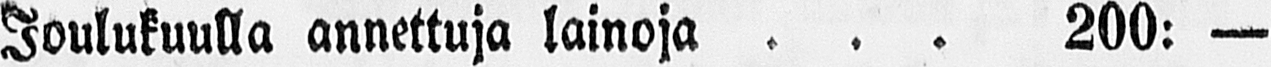Joulukuulla annettuja lainoja . . . 200: —
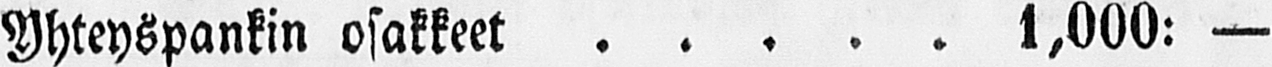Yhteyspankin osakkeet . . . . . . 1,000: —
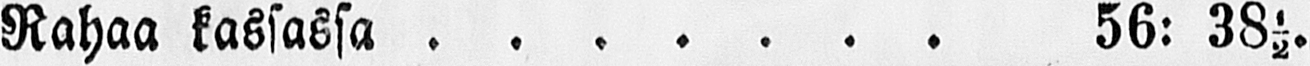Rahaa kassassa . . . . . . . 56: 38½.
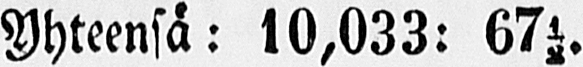Yhteensä: 10,033: 67½.
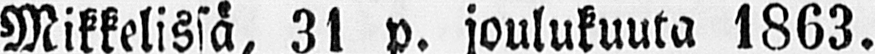Mikkelissä, 31 p. joulukuuta 1863.
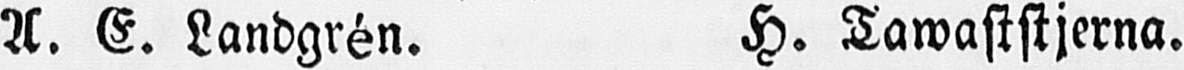A. E. Landgrén. H. Tawaststjerna.
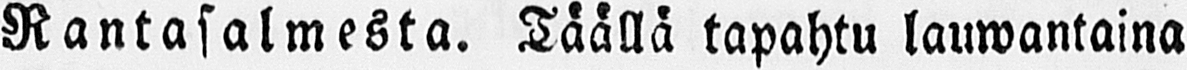Rantasalmesta. Täällä tapahtu lauwantaina
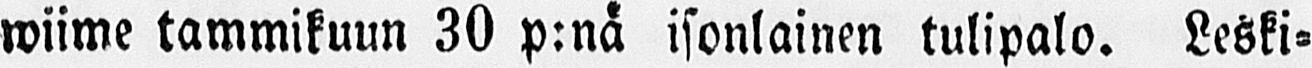wiime tammikuun 30 p:nä isonlainen tulipalo. Leski-
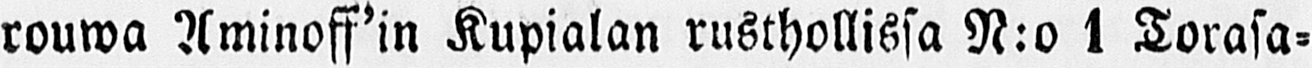rouwa Aminoff'in Kupialan rusthollissa N:o 1 Torasa-
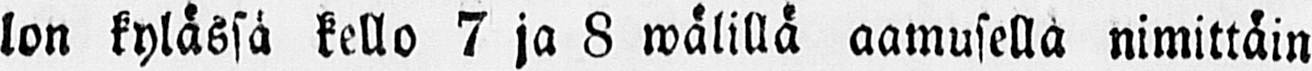lon kyläsä kello 7 ja 8 wälillä aamusella nimittäin
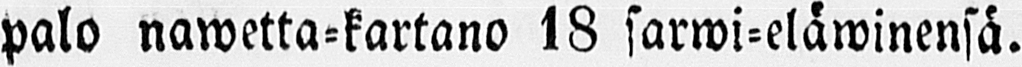palo nawetta-kartano 18 sarwi-eläwinensä.
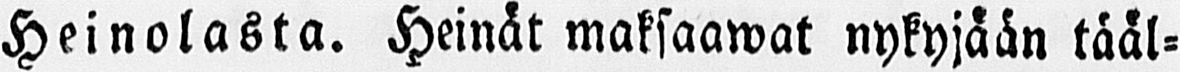Heinolasta. Heinät maksaawat nykyjään tääl-
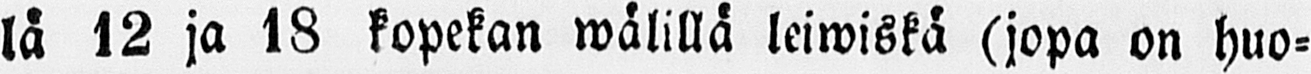lä 12 ja 18 kopekan wälillä leiwiskä (jopa on huo-
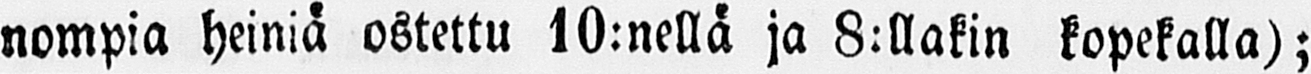nompia heiniä ostettu 10:nellä ja 8:llakin kopekalla);
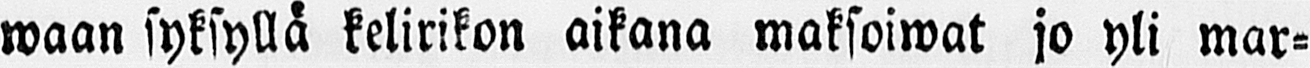waan syksyllä kelirikon aikana maksoiwat jo yli mar-
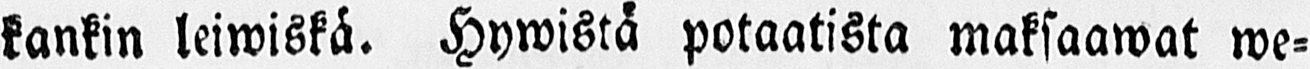kankin leiwiskä. Hywistä potaatista maksaawat we-
